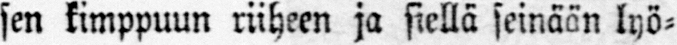sen kimppuun riiheen ja siellä seinään lyö-
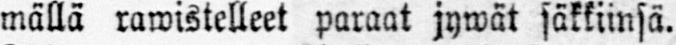mällä rawistelleet paraat jywät säkkiinsä.
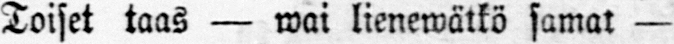Toiset taas — wai lienewätkö samat —
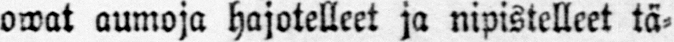owat aumoja hajotelleet ja nipistelleet tä-
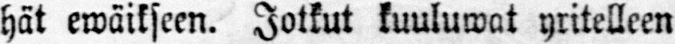hät ewäikseen. Jotkut kuuluwat yritelleen
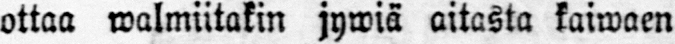ottaa walmiitakin jywiä aitasta kaiwaen
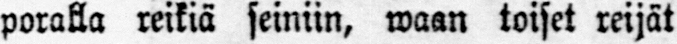poralla reikiä seiniin, waan toiset reijät
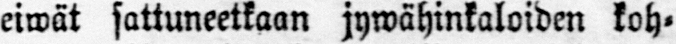eiwät sattuneetkaan jywähinkaloiden koh-
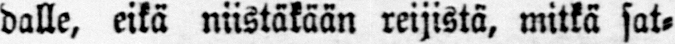dalle, eikä niistäkään reijistä, mitkä sat-
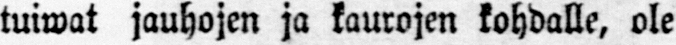tuiwat jauhojen ja kaurojen kohdalle, ole
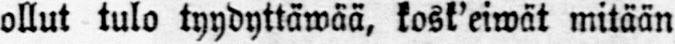ollut tulo tyydyttäwää, kosk'eiwät mitään
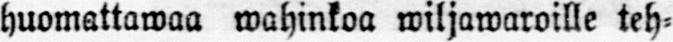huomattawaa wahinkoa wiljawaroille teh-
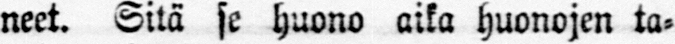neet. Sitä se huono aika huonojen ta-
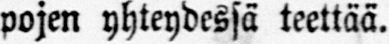pojen yhteydessä teettää.
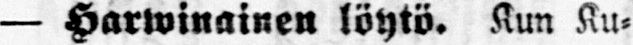— Harwinainen löytö. Kun Ku-
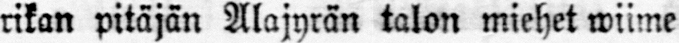rikan pitäjän Alajyrän talon miehet wiime
